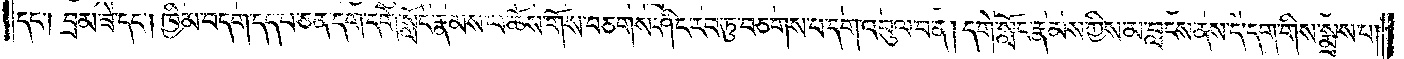དང༌། བྲམ་ཟེ་དང༌། ཁྱིམ་བདག་དད་པ་ཅན་དག་དགེ་སློང་རྣམས་ལ་ཆོས་གོས་བཅགས་ཤིང་རབ་ཏུ་བཅགས་པ་དག་འབུལ་བ་ན། དགེ་སློང་རྣམས་ཀྱིས་མ་བླངས་ནས་དེ་དག་གིས་སྨྲས་པ།
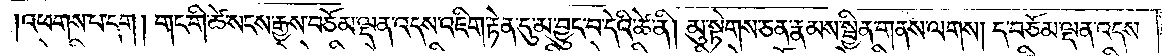འཕགས་པ་དག །གང་གི་ཚེ་སངས་རྒྱས་བཅོམ་ལྡན་འདས་འཇིག་རྟེན་དུ་མ་བྱུང་བ་དེའི་ཚེ་ནི། མུ་སྟེགས་ཅན་རྣམས་སྦྱིན་གནས་ལགས། ད་བཅོམ་ལྡན་འདས་
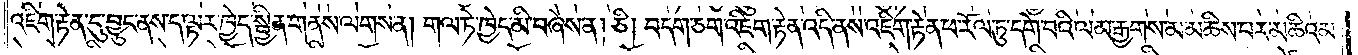འཇིག་རྟེན་དུ་བྱུང་ནས་ད་ལྟར་ཁྱེད་སྦྱིན་གནས་ལགས་ན། གལ་ཏེ་ཁྱེད་མི་བཞེས་ན། ཅི། བདག་ཅག་འཇིག་རྟེན་འདི་ནས་འཇིག་རྟེན་ཕ་རོལ་ཏུ་དགེ་བའི་ལམ་རྒྱགས་མ་མཆིས་པར་མཆིའམ་
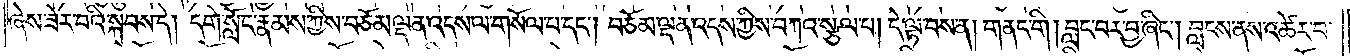ཞེས་ཟེར་བའི་སྐབས་དེ། དགེ་སློང་རྣམས་ཀྱིས་བཅོམ་ལྡན་འདས་ལ་གསོལ་པ་དང༌། བཅོམ་ལྡན་འདས་ཀྱིས་བཀའ་སྩལ་པ། དེ་ལྟ་བས་ན། གནང་གི། བླང་བར་བྱ་ཞིང༌། བླངས་ནས་འཚེར་བ་
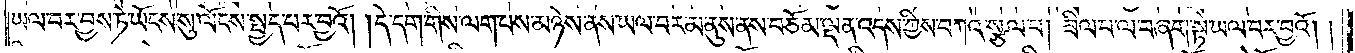ཡལ་བར་བྱས་ཏེ་ཡོངས་སུ་ལོངས་སྤྱད་པར་བྱའོ། །དེ་དག་གིས་ལག་པས་མཉེས་ནས་ཡལ་བར་མ་ནུས་ནས་བཅོམ་ལྡན་འདས་ཀྱིས་བཀའ་སྩལ་པ། ཟིལ་པ་ལ་བཞག་སྟེ་ཡལ་བར་བྱའོ། །
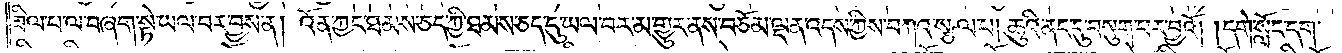ཟིལ་པ་ལ་བཞག་སྟེ་ཡལ་བར་བྱས་ན། འོན་ཀྱང་ཐམས་ཅད་ཀྱི་ཐམས་ཅད་དུ་ཡལ་བར་མ་གྱུར་ནས་བཅོམ་ལྡན་འདས་ཀྱིས་བཀའ་སྩལ་པ། ཆུའི་ནང་དུ་བསུག་པར་བྱའོ། །དགེ་སློང་དག་
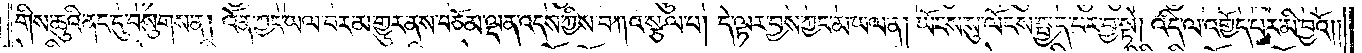གིས་ཆུའི་ནང་དུ་བསུགས་ན། འོན་ཀྱང་ཡལ་བར་མ་གྱུར་ནས་བཅོམ་ལྡན་འདས་ཀྱིས་བཀའ་སྩལ་པ། དེ་ལྟར་བྱས་ཀྱང་མ་ཡལ་ན། ཡོངས་སུ་ལོངས་སྤྱད་པར་བྱ་སྟེ། འདི་ལ་འགྱོད་པར་མི་བྱའོ། །
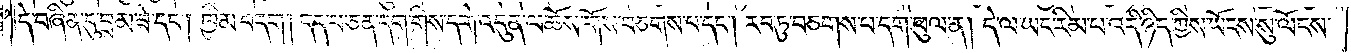དེ་བཞིན་དུ་བྲམ་ཟེ་དང༌། ཁྱིམ་བདག །དད་པ་ཅན་དག་གིས་དགེ་འདུན་ལ་ཆོས་གོས་བཅགས་པ་དང༌། རབ་ཏུ་བཅགས་པ་དག་ཕུལ་ན། དེ་ལ་ཡང་རིམ་པ་འདི་ཉིད་ཀྱིས་ཡོངས་སུ་ལོངས་
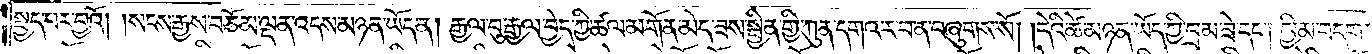སྤྱད་པར་བྱའོ། །སངས་རྒྱས་བཅོམ་ལྡན་འདས་མཉན་ཡོད་ན། རྒྱལ་བུ་རྒྱལ་བྱེད་ཀྱི་ཚལ་མགོན་མེད་ཟས་སྦྱིན་གྱི་ཀུན་དགའ་ར་བ་ན་བཞུགས་སོ། །དེའི་ཚེ་མཉན་ཡོད་ཀྱི་བྲམ་ཟེ་དང༌། ཁྱིམ་བདག་
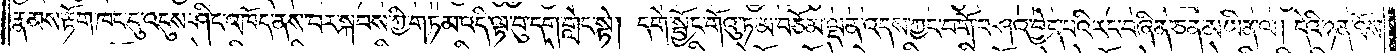རྣམས་རྟོག་ཁང་དུ་འདུས་ཤིང་འཁོད་ནས་བར་སྐབས་ཀྱི་གཏམ་འདི་ལྟ་བུ་དག་གླེང་སྟེ། དགེ་སྦྱོང་གོའུ་ཏ་མ་བཅོམ་ལྡན་འདས་ཀྱང་བགོ་བཤའ་བྱེད་པའི་རང་བཞིན་ཅན་མ་ཡིན་ལ། དེའི་ཉན་ཐོས་
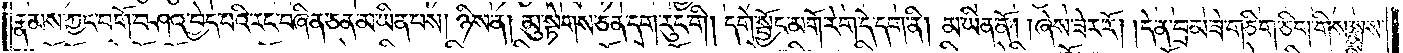རྣམས་ཀྱང་བགོ་བཤའ་བྱེད་པའི་རང་བཞིན་ཅན་མ་ཡིན་པས། ཉིས་ན། མུ་སྟེགས་ཅན་དག་རུང་གི། དགེ་སྦྱོང་མགོ་རེག་དེ་དག་ནི། མ་ཡིན་ནོ། །ཞེས་ཟེར་རོ། །དེ་ན་བྲམ་ཟེ་གཅིག་ཅིག་གིས་སྨྲས་
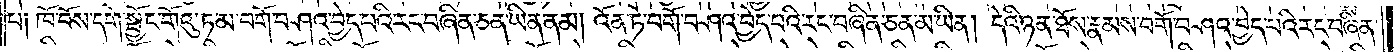པ། ཁོ་བོས་དགེ་སྦྱོང་གོའུ་ཏ་མ་བགོ་བཤའ་བྱེད་པའི་རང་བཞིན་ཅན་ཡིན་ནམ། འོན་ཏེ་བགོ་བཤའ་བྱེད་པའི་རང་བཞིན་ཅན་མ་ཡིན། དེའི་ཉན་ཐོས་རྣམས་བགོ་བཤའ་བྱེད་པའི་རང་བཞིན་
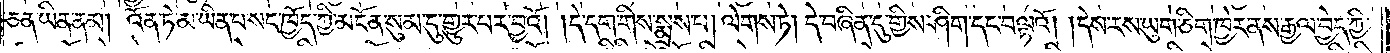ཅན་ཡིན་ནམ། འོན་ཏེ་མ་ཡིན་པ་སང་ཁྱོད་ཀྱི་མངོན་སུམ་དུ་གྱུར་པར་བྱའོ། །དེ་དག་གིས་སྨྲས་པ། ལེགས་ཏེ། དེ་བཞིན་དུ་གྱིས་ཤིག་དང་བལྟའོ། །དེས་རས་ཡུག་ཅིག་ཁྱེར་ནས་རྒྱལ་བྱེད་ཀྱི་
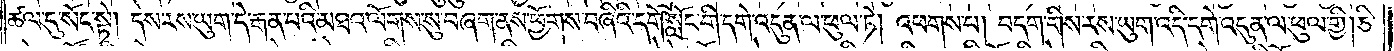ཚལ་དུ་སོང་སྟེ། དེས་རས་ཡུག་དེ་རྒན་པའི་མཐའ་ལོགས་སུ་བཞག་ནས་ཕྱོགས་བཞིའི་དགེ་སློང་གི་དགེ་འདུན་ལ་ཕུལ་ཏེ། འཕགས་པ། བདག་གིས་རས་ཡུག་འདི་དགེ་འདུན་ལ་ཕུལ་གྱི། ཅི་
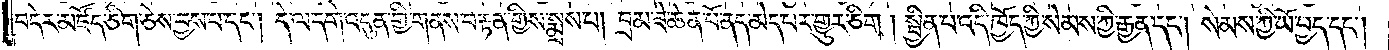བདེར་མཛོད་ཅིག་ཅེས་བྱས་པ་དང༌། དེ་ལ་དགེ་འདུན་གྱི་གནས་བརྟན་གྱིས་སྨྲས་པ། བྲམ་ཟེ་ཆེན་པོ་ནད་མེད་པར་གྱུར་ཅིག །སྦྱིན་པ་འདི་ཁྱོད་ཀྱི་སེམས་ཀྱི་རྒྱན་དང༌། སེམས་ཀྱི་ཡོ་བྱད་དང༌།
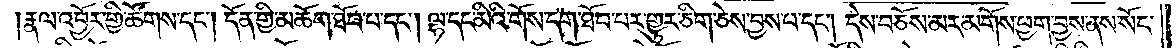རྣལ་འབྱོར་གྱི་ཚོགས་དང༌། དོན་གྱི་མཆོག་ཐོབ་པ་དང༌། ལྷ་དང་མིའི་གོས་དག་ཐོབ་པར་གྱུར་ཅིག་ཅེས་བྱས་པ་དང༌། དེས་བཅོམ་མར་མགོས་ཕྱག་བྱས་ནས་སོང་
